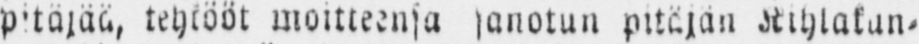pitäjää, tehkööt moitteensa sanotun pitäjän Kihlakun-
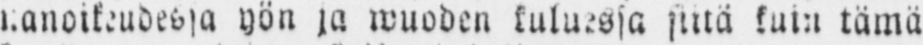nanoikeudessa yön ja wuoden kuluessa siitä kuin tämä
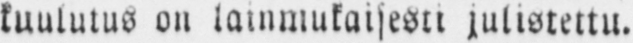kuulutus on lainmukaisesti julistettu.
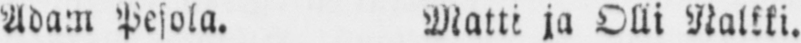Adam Pesola. Matti ja Olli Nalkki.
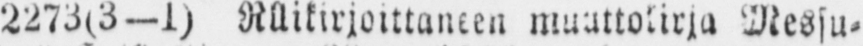2273(3—1) Rllikirjoittaneen muuttokirja Messu-
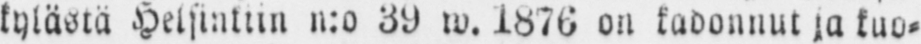kyläsiä Helsinkiin n:o 39 w. 1876 on kadonnut ja kuo-
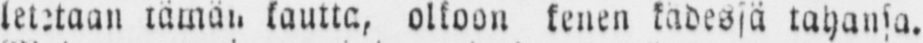letetaan tämän kautta, olkoon kenen kädessä tahansa.
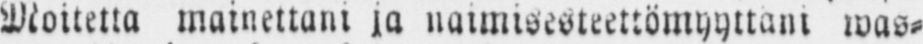Moitetta mainettani ja naimisesteeetömyyttäni was-
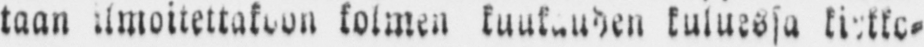taan ilmoitettakoon kolmen kuukauden kuluessa kirkko-
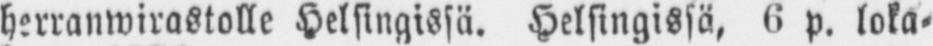herranwirastolle Helsingissä. Helsingissä, 6 p. loka-
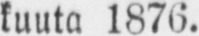kuuta 1876.
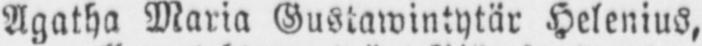Agatha Maria Gustawintytär Helenius,
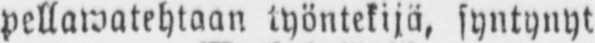pellawatehtaan työntekijä, syntynyt
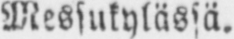Messukylässä.
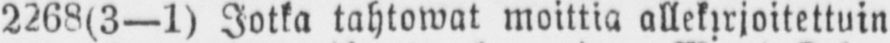2268(3—1) Jotka tahtowat moittia allekirjoitettuin
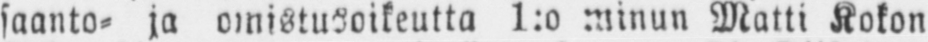saanto- ja omistusoikeutta 1:o minun Matti Kokon
